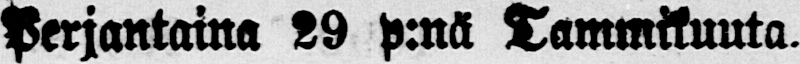Perjantaina 29 p:nä Tammikuuta.
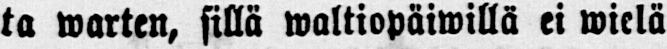ta warten, sillä waltiopäiwillä ei wielä
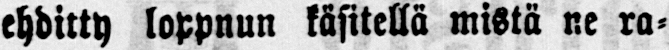ehditty loppuun käsitellä mistä ne ra-
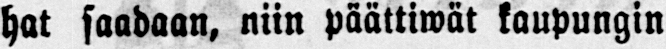hat saadaan, niin päättiwät kaupungin
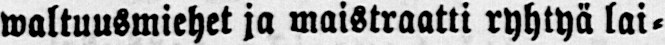waltuusmiehet ja maistraatti ryhtyä lai-
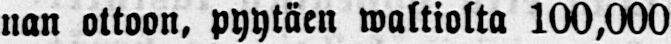nan ottoon, pyytäen waltiolta 100,000
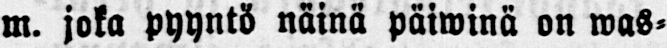m. joka pyyntö näinä päiwinä on was-
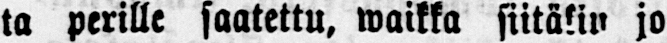ta perille saatettu, waikka siitäkin jo
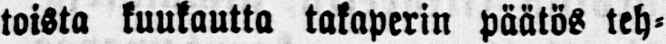toista kuukautta takaperin päätös teh-
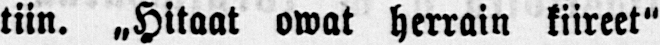tiin. „Hitaat owat herrain kiireet"
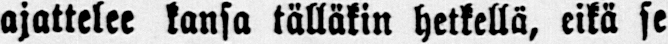ajattelee kansa tälläkin hetkellä, eikä se
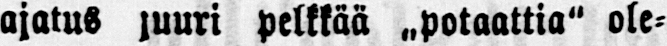ajatus juuri pelkkää „potaattia" ole-
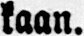kaan.
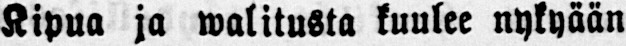Kipua ja walitusta kuulee nykyään
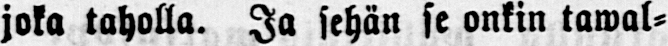joka taholla. Ja sehän se onkin tawal-
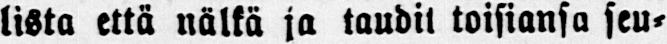lista että nälkä ja taudit toisiansa seu-
